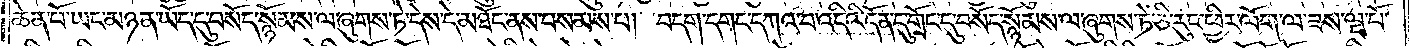ཆེན་པོ་ཡང་མཉན་ཡོད་དུ་བསོད་སྙོམས་ལ་ཞུགས་ཏེ་དེས་དེ་མཐོང་ནས་བསམས་པ། བདག་དགང་དཀའ་བ་འདིའི་དོན་དུ་གྲོང་དུ་བསོད་སྙོམས་ལ་ཞུགས་ཏེ་ཅི་རུང་ཕྱིར་ལོག་ལ་ཟས་ལྔ་པོ་
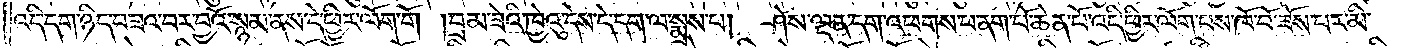འདི་དག་ཉིད་བཟའ་བར་བྱའོ་སྙམ་ནས་དེ་ཕྱིར་ལོག་གོ །བྲམ་ཟེའི་ཁྱེའུ་དེས་དེ་དག་ལ་སྨྲས་པ། ཤེས་ལྡན་དག་འཕགས་པ་ནག་པོ་ཆེན་པོ་འདི་ཕྱིར་ལོག་པས་ཁོ་བོ་ཟོས་པར་མི་
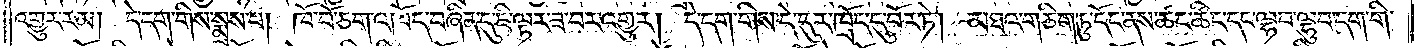འགྱུར་རམ། དེ་དག་གིས་སྨྲས་པ། ཁོ་བོ་ཅག་འཁོད་བཞིན་དུ་ཇི་ལྟར་ཟ་བར་འགྱུར། དེ་དག་གིས་དེ་དུར་ཁྲོད་དུ་བོར་ཏེ། མཐའ་གཅིག་ཏུ་དོང་ནས་ཚང་ཚིང་དང་ལྷབ་ལྷུབ་དག་གི་
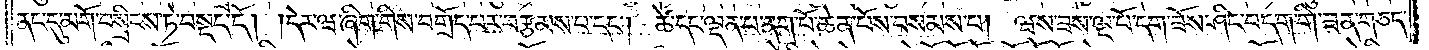ནང་དུ་མགོ་བསྲིངས་ཏེ་བསྡད་དོ། །དེར་ཝ་ཞིག་གིས་བགྲོད་པར་བརྩམས་པ་དང༌། ཚེ་དང་ལྡན་པ་ནག་པོ་ཆེན་པོས་བསམས་པ། ཝས་ཟས་ལྔ་པོ་དག་ཟོས་ཤིང་བདག་གི་ཟན་གཅད་
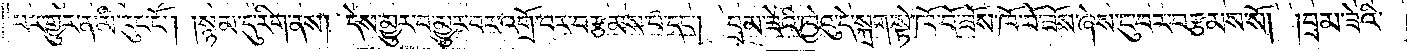པར་གྱུར་ན་མི་རུང་ངོ༌། །སྙམ་དུ་རིག་ནས། དེས་མྱུར་བ་མྱུར་བར་འགྲོ་བར་བརྩམས་པ་དང༌། བྲམ་ཟེའི་ཁྱེའུ་དེ་སྐྲག་སྟེ་ཁོ་བོ་ཟོས་ཁོ་བོ་ཟོས་ཞེས་ངུ་བར་བརྩམས་སོ། །བྲམ་ཟེའི་
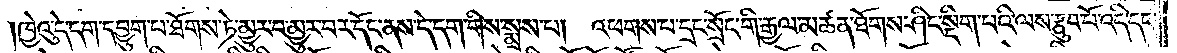ཁྱེའུ་དེ་དག་དབྱུག་པ་ཐོགས་ཏེ་མྱུར་བ་མྱུར་བར་དོང་ནས་དེ་དག་གིས་སྨྲས་པ། འཕགས་པ་དྲང་སྲོང་གི་རྒྱལ་མཚན་ཐོགས་ཤིང་སྡིག་པའི་ལས་རྩུབ་པོ་འདི་དང་
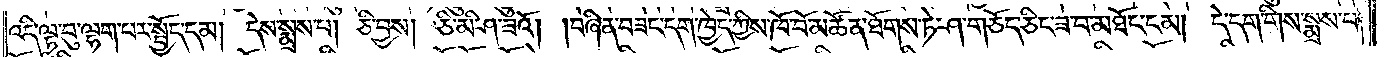འདི་ལྟ་བུ་ལྷག་པར་སྤྱོད་དམ། དེས་སྨྲས་པ། ཅི་བྱས། ཅི་མི་ཤ་ཟའོ། །བཞིན་བཟང་དག་ཁྱེད་ཀྱིས་ཁོ་བོ་མཚོན་ཐོགས་ཏེ་ཤ་གཅོད་ཅིང་ཟ་བ་མཐོང་ངམ། དེ་དག་གིས་སྨྲས་པ།
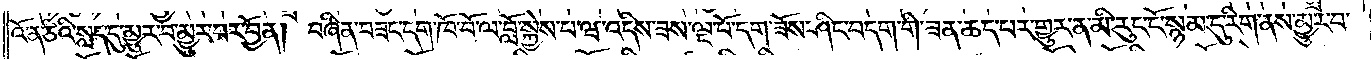འོ་ན་ཅིའི་སླད་དུ་མྱུར་བ་མྱུར་བར་བྱོན། བཞིན་བཟང་དག་ཁོ་བོ་ལ་བློ་སྐྱེས་པ་ཝ་འདིས་ཟས་ལྔ་པོ་དག་ཟོས་ཤིང་བདག་གི་ཟན་ཆད་པར་གྱུར་ན་མི་རུང་ངོ་སྙམ་དུ་རིག་ནས་མྱུར་བ་
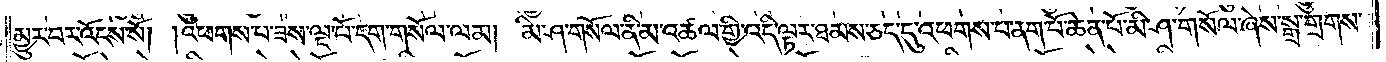མྱུར་བར་འོངས་སོ། །འཕགས་པ་ཟས་ལྔ་པོ་དག་གསོལ་ལམ། མི་ཤ་གསོལ་ནི་མ་འཚལ་གྱི་འདི་ལྟར་ཐམས་ཅད་དུ་འཕགས་པ་ནག་པོ་ཆེན་པོ་མི་ཤ་གསོལ་ཞེས་སྒྲ་གྲགས་
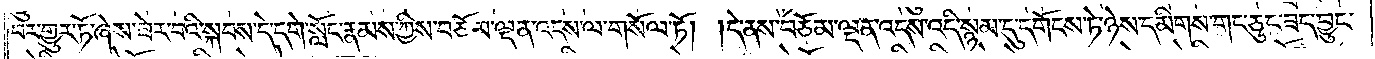བར་གྱུར་ཏོ་ཞེས་ཟེར་བའི་སྐབས་དེ་དགེ་སློང་རྣམས་ཀྱིས་བཅོམ་ལྡན་འདས་ལ་གསོལ་ཏོ། །དེ་ནས་བཅོམ་ལྡན་འདས་འདི་སྙམ་དུ་དགོངས་ཏེ་ཉེས་དམིགས་གང་ཅུང་ཟད་བྱུང་
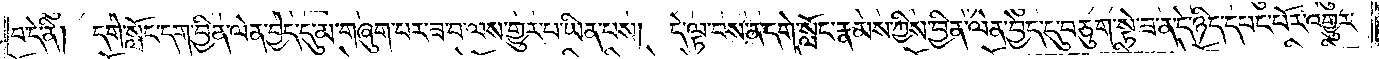བ་དེ་ནི། དགེ་སློང་དག་བྱིན་ལེན་བྱེད་དུ་མ་གཞུག་པར་ཟ་བ་ལས་གྱུར་པ་ཡིན་པས། དེ་ལྟ་བས་ན་དགེ་སློང་རྣམས་ཀྱིས་བྱིན་ལེན་བྱེད་དུ་བཅུག་སྟེ་ཟ་ན་དེ་ཉིད་དཔང་པོར་འགྱུར་
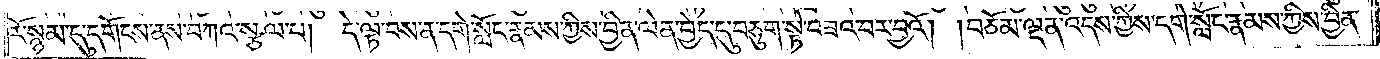རོ་སྙམ་དུ་དགོངས་ནས་བཀའ་སྩལ་པ། དེ་ལྟ་བས་ན་དགེ་སློང་རྣམས་ཀྱིས་བྱིན་ལེན་བྱེད་དུ་བཅུག་སྟེ་བཟའ་བར་བྱའོ། །བཅོམ་ལྡན་འདས་ཀྱིས་དགེ་སློང་རྣམས་ཀྱིས་བྱིན་
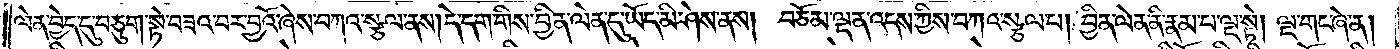ལེན་བྱེད་དུ་བཅུག་སྟེ་བཟའ་བར་བྱའོ་ཞེས་བཀའ་སྩལ་ནས། དེ་དག་གིས་བྱིན་ལེན་དུ་ཡོད་མི་ཤེས་ནས། བཅོམ་ལྡན་འདས་ཀྱིས་བཀའ་སྩལ་པ། བྱིན་ལེན་ནི་རྣམ་པ་ལྔ་སྟེ། ལྔ་གང་ཞེ་ན།
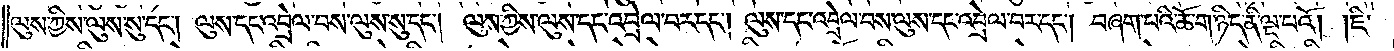ལུས་ཀྱིས་ལུས་སུ་དང༌། ལུས་དང་འབྲེལ་བས་ལུས་སུ་དང༌། ལུས་ཀྱིས་ལུས་དང་འབྲེལ་བར་དང༌། ལུས་དང་འབྲེལ་བས་ལུས་དང་འབྲེལ་བར་དང༌། བཞག་པའི་ཆོ་ག་ཉིད་ནི་ལྔ་པའོ། །ཇི་
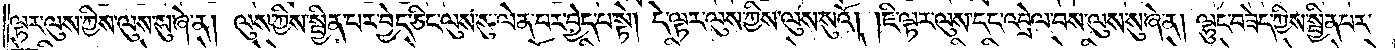ལྟར་ལུས་ཀྱིས་ལུས་སུ་ཞེ་ན། ལུས་ཀྱིས་སྦྱིན་པར་བྱེད་ཅིང་ལུས་སུ་ལེན་པར་བྱེད་པ་སྟེ། དེ་ལྟར་ལུས་ཀྱིས་ལུས་སུའོ། །ཇི་ལྟར་ལུས་དང་འབྲེལ་བས་ལུས་སུ་ཞེ་ན། ལྷུང་བཟེད་ཀྱིས་སྦྱིན་པར་
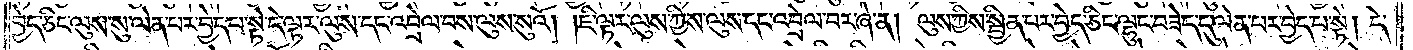བྱེད་ཅིང་ལུས་སུ་ལེན་པར་བྱེད་པ་སྟེ་དེ་ལྟར་ལུས་དང་འབྲེལ་བས་ལུས་སུའོ། །ཇི་ལྟར་ལུས་ཀྱིས་ལུས་དང་འབྲེལ་བར་ཞེ་ན། ལུས་ཀྱིས་སྦྱིན་པར་བྱེད་ཅིང་ལྷུང་བཟེད་དུ་ལེན་པར་བྱེད་པ་སྟེ། དེ་
